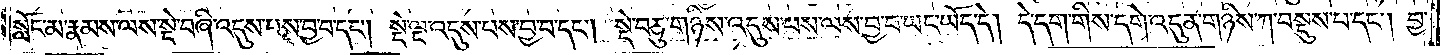སློང་མ་རྣམས་ལས་སྡེ་བཞི་འདུས་པས་བྱ་བ་དང༌། སྡེ་ལྔ་འདུས་པས་བྱ་བ་དང༌། སྡེ་བཅུ་གཉིས་འདུས་པས་ལས་བྱ་བ་ཡང་ཡོད་དེ། དེ་དག་གིས་དགེ་འདུན་གཉིས་ཀ་བསྡུས་པ་དང༌། བྱ་
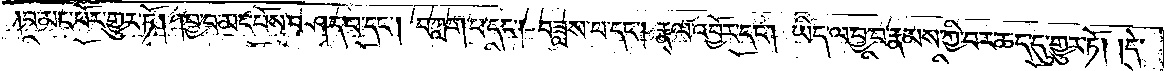བ་མང་པོར་གྱུར་ཏོ། །བྱ་བ་མང་པོས་བཤད་པ་དང༌། བཀླག་པ་དང༌། བཟླས་པ་དང༌། རྣལ་འབྱོར་དང༌། ཡིད་ལ་བྱ་བ་རྣམས་ཀྱི་བར་ཆད་དུ་གྱུར་ཏོ། །དེ་
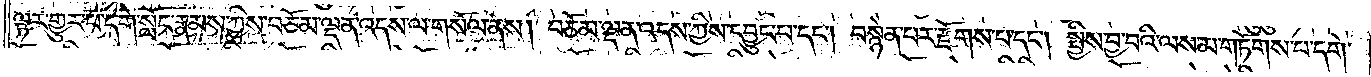ལྟར་གྱུར་པ་དགེ་སློང་རྣམས་ཀྱིས་བཅོམ་ལྡན་འདས་ལ་གསོལ་ནས། བཅོམ་ལྡན་འདས་ཀྱིས་དབྱུང་བ་དང༌། བསྙེན་པར་རྫོགས་པ་དང༌། སྤྱིས་བྱ་བའི་ལས་མ་གཏོགས་པ་དགེ་
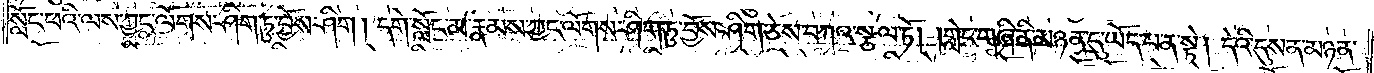སློང་ཕའི་ལས་ཀྱང་ལོགས་ཤིག་ཏུ་བྱོས་ཤིག །དགེ་སློང་མ་རྣམས་ཀྱང་ལོགས་ཤིག་ཏུ་བྱོས་ཤིག་ཅེས་བཀའ་སྩལ་ཏོ། །གླེང་གཞི་ནི་མཉན་དུ་ཡོད་པ་ན་སྟེ། དེའི་དུས་ན་མཉན་
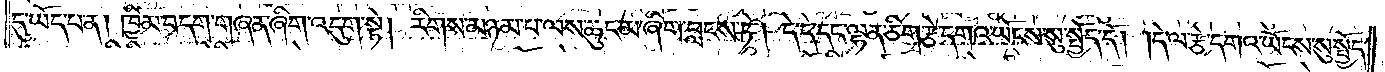དུ་ཡོད་པ་ན། ཁྱིམ་བདག་གཞན་ཞིག་འདུག་སྟེ། རིགས་མཉམ་པ་ལས་ཆུང་མ་ཞིག་བླངས་ཏེ། དེ་དེ་དང་ལྷན་ཅིག་རྩེ་དགའ་ཡོངས་སུ་སྤྱོད་དོ། །དེ་ལ་རྩེ་དགའ་ཡོངས་སུ་སྤྱོད་
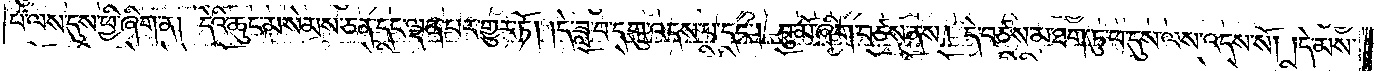པ་ལས་དུས་ཕྱི་ཞིག་ན། དེའི་ཆུང་མ་སེམས་ཅན་དང་ལྡན་པར་གྱུར་ཏོ། །དེ་ཟླ་བ་དགུ་འདས་པ་དང༌། བུ་མོ་ཞིག་བཙས་ནས། དེ་བཙས་མ་ཐག་ཏུ་ཕ་དུས་ལས་འདས་སོ། །དེ་མས་
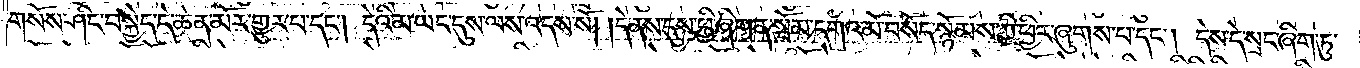གསོས་ཤིང་བསྐྱེད་དེ་ཆེན་མོར་གྱུར་པ་དང༌། དེའི་མ་ཡང་དུས་ལས་འདས་སོ། །དེ་ནས་དུས་ཕྱི་ཞིག་ན་སྦོམ་དགའ་མོ་བསོད་སྙོམས་ཀྱི་ཕྱིར་ཞུགས་པ་དང༌། དེས་དེ་སྲང་ཞིག་ཏུ་
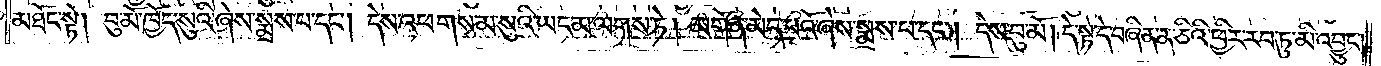མཐོང་སྟེ། བུ་མོ་ཁྱོད་སུའི་ཞེས་སྨྲས་པ་དང༌། དེས་འཕགས་མ་སུའི་ཡང་མ་ལགས་ཏེ། མགོན་མེད་པའོ་ཞེས་སྨྲས་པ་དང༌། དེས་བུ་མོ། དེ་སྟེ་དེ་བཞིན་ན་ཅིའི་ཕྱིར་རབ་ཏུ་མི་འབྱུང་
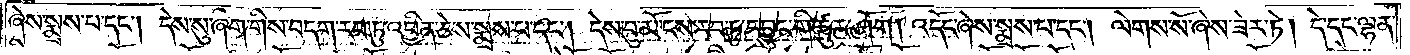ཞེས་སྨྲས་པ་དང༌། དེས་སུ་ཞིག་གིས་བདག་རབ་ཏུ་འབྱིན་ཅེས་སྨྲས་པ་དང༌། དེས་བུ་མོ་ངས་རབ་ཏུ་དབྱུང་གི་ཚུར་ཤོག །འདོང་ཞེས་སྨྲས་པ་དང༌། ལེགས་སོ་ཞེས་ཟེར་ཏེ། དེ་དང་ལྷན་
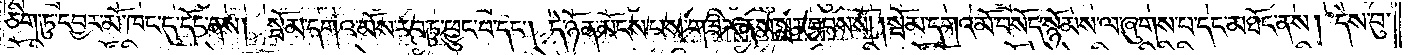ཅིག་ཏུ་དབྱར་མོ་ཁང་དུ་དོང་ནས། སྦོམ་དགའ་མོས་རབ་ཏུ་ཕྱུང་བ་དང༌། དེ་ཉོན་མོངས་པས་གཟིར་ནས་སླར་བབས་སོ། །སྦོམ་དགའ་མོ་བསོད་སྙོམས་ལ་ཞུགས་པ་དང་མཐོང་ནས། དེས་བུ་
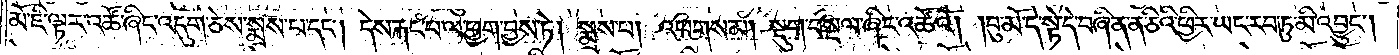མོ་ཇི་ལྟར་འཚོ་ཞིང་འདུག་ཅེས་སྨྲས་པ་དང༌། དེས་རྐང་པ་ལ་ཕྱག་བྱས་ཏེ། སྨྲས་པ། འཕགས་མ། སྡུག་བསྔལ་ཞིང་འཚོའོ། །བུ་མོ་དེ་སྟེ་དེ་བཞིན་ན་ཅིའི་ཕྱིར་ཡང་རབ་ཏུ་མི་འབྱུང༌།
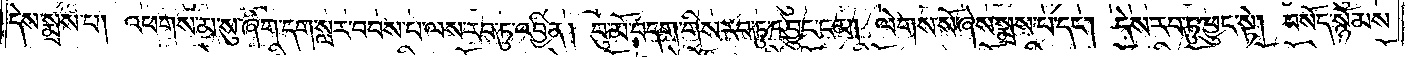དེས་སྨྲས་པ། འཕགས་མ་སུ་ཞིག་དག་སླར་བབས་པ་ལས་རབ་ཏུ་འབྱིན། བུ་མོ་བདག་གིས་རབ་ཏུ་དབྱུང་ངམ། ལེགས་སོ་ཞེས་སྨྲས་པ་དང༌། དེས་རབ་ཏུ་ཕྱུང་སྟེ། བསོད་སྙོམས་
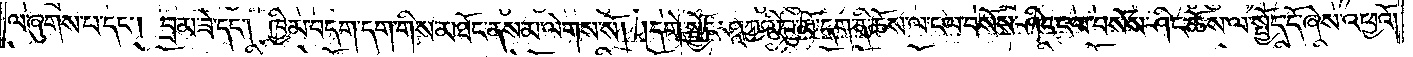ལ་ཞུགས་པ་དང༌། བྲམ་ཟེ་དང༌། ཁྱིམ་བདག་དག་གིས་མཐོང་ནས་མ་ལེགས་སོ། །དགེ་སྦྱོང་ཤཱཀྱའི་བུ་མོ་དག་ནི་ཆོས་ལ་ངལ་བསོས་ཤིང་ངལ་བསོས་ཤིང་ཆོས་ལ་སྤྱོད་དོ་ཞེས་འཕྱའོ།
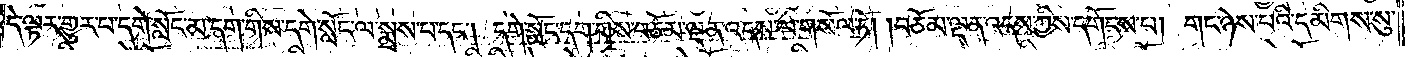དེ་ལྟར་གྱུར་པ་དགེ་སློང་མ་དག་གིས་དགེ་སློང་ལ་སྨྲས་པ་དང༌། དགེ་སློང་དག་གིས་བཅོམ་ལྡན་འདས་ལ་གསོལ་ཏོ། །བཅོམ་ལྡན་འདས་ཀྱིས་དགོངས་པ། གང་ཉེས་པའི་དམིགས་སུ་
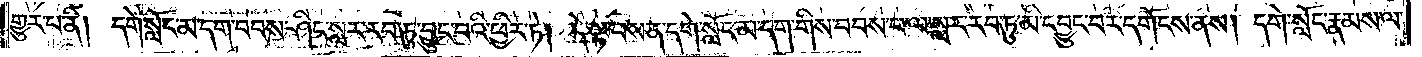གྱུར་པ་ནི། དགེ་སློང་མ་དག་བབས་ཤིང་སླར་རབ་ཏུ་བྱུང་བའི་ཕྱིར་ཏེ། དེ་ལྟ་བས་ན་དགེ་སློང་མ་དག་གིས་བབས་པ་ལ་སླར་རབ་ཏུ་མི་དབྱུང་བར་དགོངས་ནས། དགེ་སློང་རྣམས་ལ་
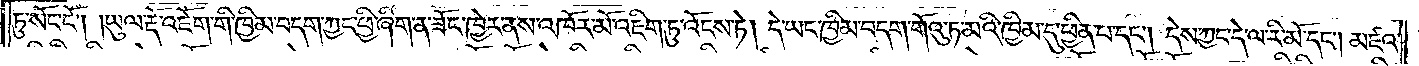ཏུ་སོང་ངོ༌། །ཡུལ་རྡོ་འཇོག་གི་ཁྱིམ་བདག་ཀྱང་ཕྱི་ཞིག་ན་ཟོང་ཁྱེར་ནས་འཁོར་མོ་འཇིག་ཏུ་འོངས་ཏེ། དེ་ཡང་ཁྱིམ་བདག་གོའུ་ཏ་མའི་ཁྱིམ་དུ་ཕྱིན་པ་དང༌། དེས་ཀྱང་དེ་ལ་རི་མོ་དང༌། མཛའ་
